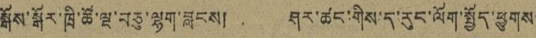སྒོས་སྒོར་ཁྲི་ཚོ་ལྔ་བཅུ་ལྷག་བླངས། ཤར་ཚང་གིས་ད་རུང་ལོག་སྤྱོད་ཕྱུགས་
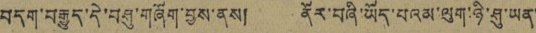བདག་བརྒྱུད་དེ་བཤུ་གཞོག་བྱས་ནས། ནོར་བཞི་ཡོད་པའམ་ལུག་ཉི་ཤུ་ཡན་
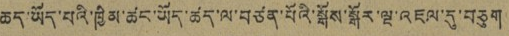ཆད་ཡོད་པའི་ཁྱིམ་ཚང་ཡོད་ཚད་ལ་བཙན་པོའི་སྒོས་སྒོར་ལྔ་འཇལ་དུ་བཅུག
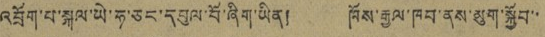འབྲོག་པ་སྐལ་ཡེ་ཧ་ཅང་དབུལ་བོ་ཞིག་ཡིན། ཁོས་རྒྱལ་ཁབ་ནས་མུག་སྐྱོབ་་
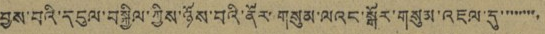བྱས་པའི་དངུལ་བསྐྱིལ་ཀྱིས་ཉོས་པའི་ནོར་གསུམ་ལའང་སྒོར་གསུམ་འཇལ་དུ་་་་་་་་་
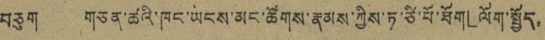བཅུག གཅན་ཚའི་ཁང་ཡངས་མང་ཚོགས་རྣམས་ཀྱིས་ཏ་ཙི་པོ་ཐོག「ལོག་སྤྱོད་
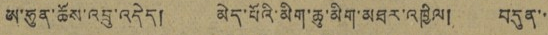ཨ་ཧུན་ཆོས་འབྲུ་འདེད། མེད་པོའི་མིག་ཆུ་མིག་མཐར་འཁྱིལ། བདུན་་
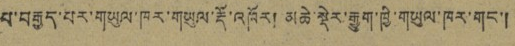པ་བརྒྱད་པར་གཡུལ་ཁར་གཡུལ་རྡོ་འཁོར། མཆེ་སྡེར་རྒྱུག་ཁྱི་གཡུལ་ཁར་གང་།
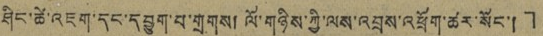ཤིང་ཚེ་འཇག་དང་དབྱུག་པ་གྲགས། ལོ་གཉིས་ཀྱི་ལས་འབྲས་འཕྲོག་ཚར་སོང་།」
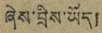ཞེས་བྲིས་ཡོད།
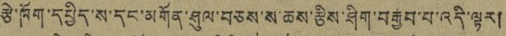རྩེ་ཁོག་དཔྱིད་ས་དང་མགོན་ཤུལ་བཅས་ས་ཆས་རྩིས་ཤིག་བརྒྱབ་པ་འདི་ལྟར།
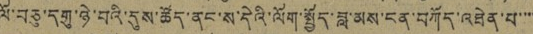ལོ་བཅུ་དགུ་ཉེ་བའི་དུས་ཚོད་ནང་ས་དེའི་ལོག་སྤྱོད་བླ་མས་ངན་བཀོད་འཐེན་པ་་་་
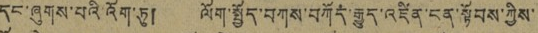དང་ཞུགས་པའི་འོག་ཏུ། ལོག་སྤྱོད་བཀས་བཀོད་རྒྱུད་འཛིན་ངན་སྟོབས་ཀྱིས་
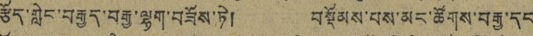རྩོད་གླེང་བརྒྱད་བརྒྱ་ལྷག་བཟོས་ཏེ། བསྡོམས་པས་མང་ཚོགས་བརྒྱ་དང
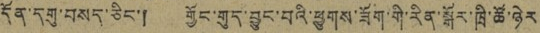དོན་དགུ་བསད་ཅིང་། གྱོང་གུད་བྱུང་བའི་ཕྱུགས་ཟོག་གི་རིན་སྒོར་ཁྲི་ཚོ་ཉེར
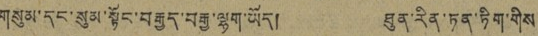གསུམ་དང་སུམ་སྟོང་བརྒྱད་བརྒྱ་ལྷག་ཡོད། ཐུན་རིན་ཏན་ཏིག་གིས
